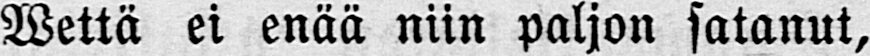Wettä ei enää niin paljon satanut,
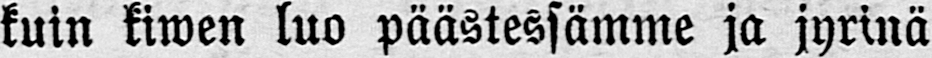kuin kiwen luo päästössämme ja jyrinä
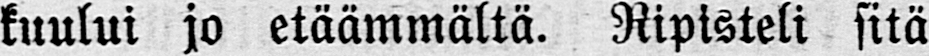kuului jo etäämmältä. Nipisteli sitä
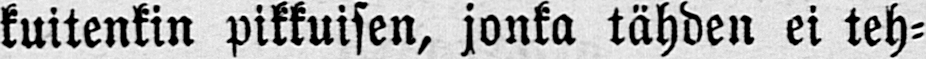kuitenkin pikkuisen, jonka lähden ei teh-
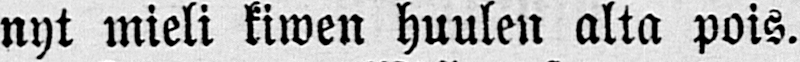nyt mieli kiwen huulen alta pois.
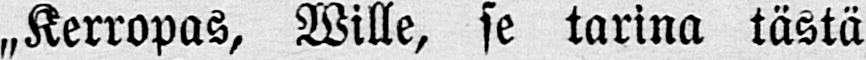„Kerropas, Wille, se tarina tästä
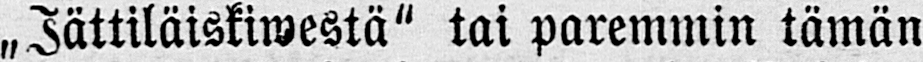„Jättiläiskiwestä" tai paremmin tämän
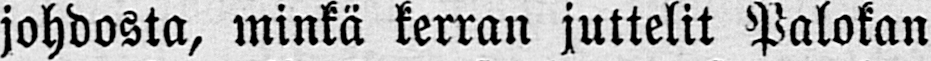johdosta, minkä kerran juttelit Palokan
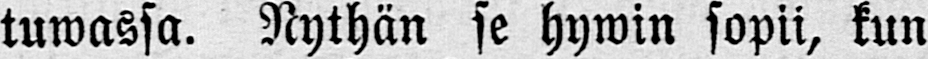tuwassa. Nythän se hywin sopii, kun
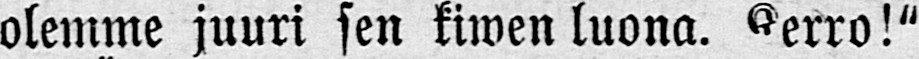olemme juuri sen kiwen luona. Kerro!"
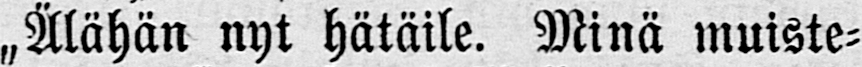„Älähän nyt hätäile. Minä muiste-
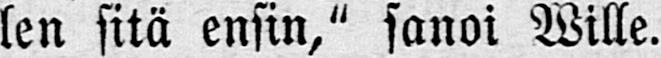len sitä ensin," sanoi Wille.
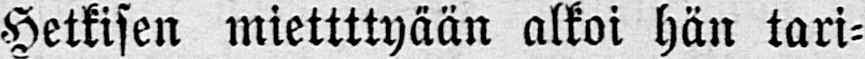Hetkisen miettttyään alkoi hän tari-
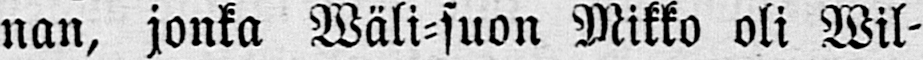nan, jonka Wäli-suon Mikko oli Wil-
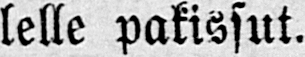lelle pakissut.
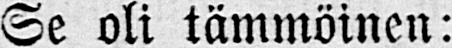Se oli tämmöinen:
